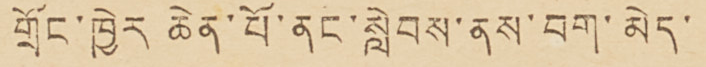གྲོང་ཁྱེར ཆེན་པོ་ནང་སླེབས་ནས་བག་མེད་
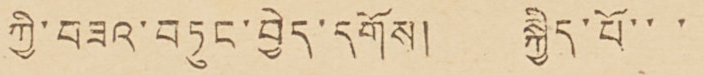ཀྱི་བཟའ་བཏུང་བྱེད་དགོས། སྐྱིད་པོ་་་
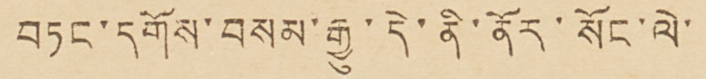བཏང་དགོས་བསམ་རྒྱུ་དེ་ནི་ནོར་སོང་ལེ་
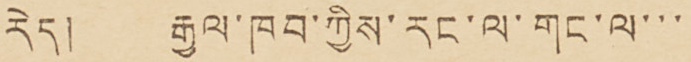རེད། རྒྱལ་ཁབ་ཀྱིས་རང་ལ་གང་ལ་་་
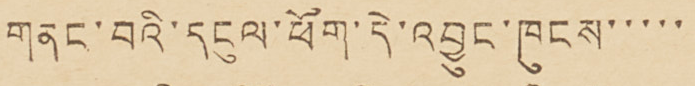གནང་བའི་དངུལ་ཕོག་དེ་འབྱུང་ཁུངས་་་་་
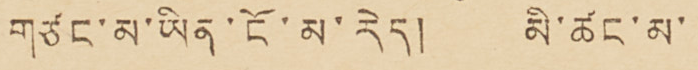གཙང་མ་ཡིན་ངོ་མ་རེད། མི་ཚང་མ་
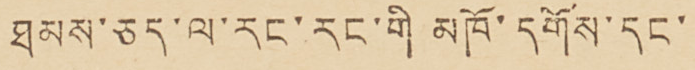ཐམས་ཅད་ལ་རང་རང་གི མཁོ་དགོས་དང་
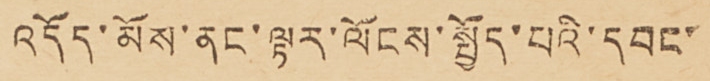འདོད་མོས་ནང་ལྟར་ལོངས་སྤྱོད་པའི་དབང་
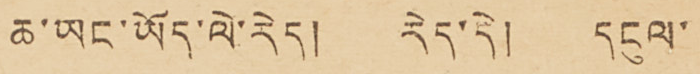ཆ་ཡང་ཡོད་ལེ་རེད། རེད་དེ། དངུལ་
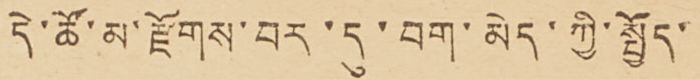དེ་ཚོ་མ་རྫོགས་བར་དུ་བག་མེད་ཀྱི་སྤྱོད་
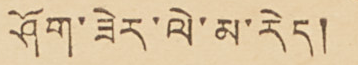ཤོག་ཟེར་ལེ་མ་རེད།
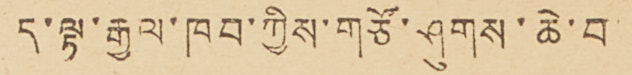ད་ལྟ་རྒྱལ་ཁབ་ཀྱིས་གཙོ་ཤུགས་ཆེ་བ་
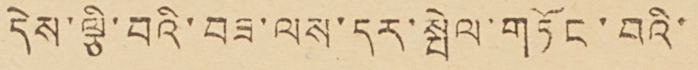དེས་ལྕི་བའི་བཟ་ལས་དར་སྤེལ་གཏོང་བའི་
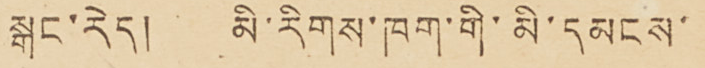སྒང་རེད། མི་རིགས་ཁག་གི་མི་དམངས་
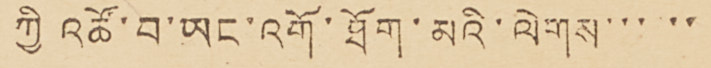ཀྱི འཚོ་བ་ཡང་འགོ་ཐོག་མའི་ལེགས་་་་་
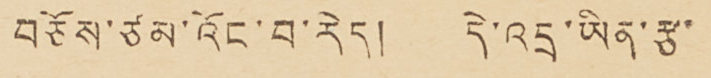བཅོས་ཙམ་འོང་བ་རེད། དེ་འདྲ་ཡིན་རྩ་
